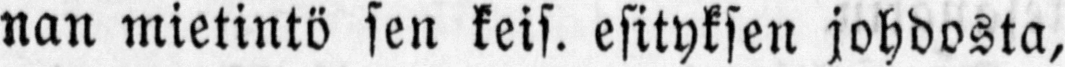nan mietintö sen keis. esityksen johdosta,
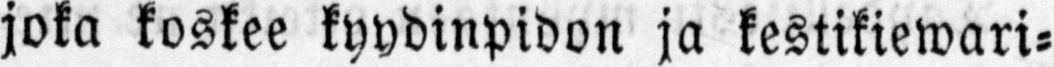joka koskee kyydinpidon ja kestikiewari-
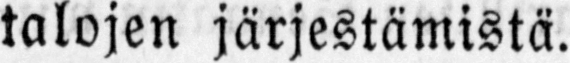talojen järjestämistä.
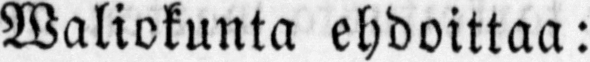Waliokunta ehdoittaa:
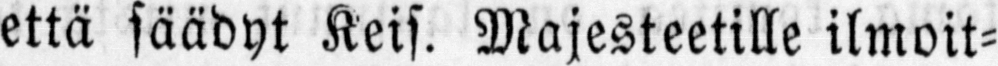että säädyt Keis. Majesteetille ilmoit-
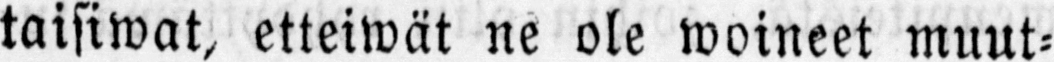taisiwat, etteiwät ne ole woineet muut-
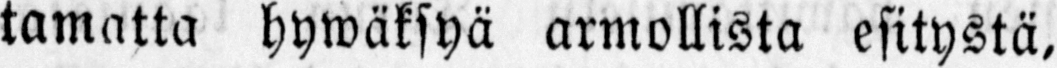tamatta hywäksyä armollista esitystä.
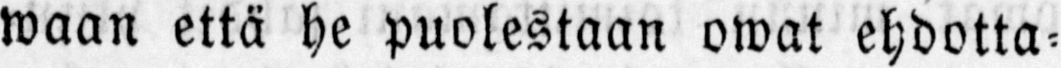waan että he puolestaan owat ehdotta-
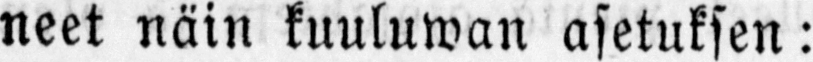neet näin kuuluman asetuksen:
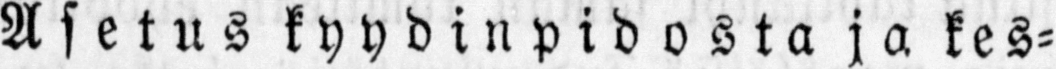Asetus kyydinpidos ta ja kes-
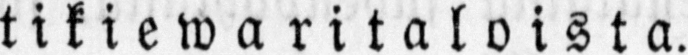tikiewaritaloista.
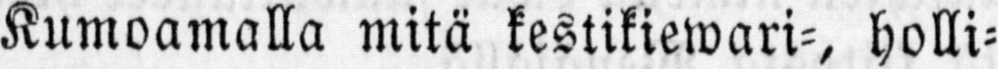Kumoamalla mitä kestikiewari-, holli-
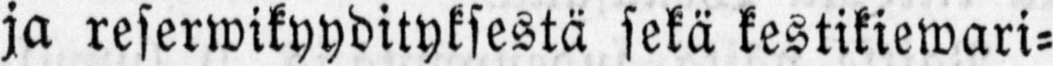ja reserwikyydityksestä sekä kestikiewari-
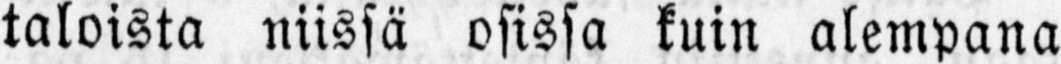taloista niissä osissa kuin alempana
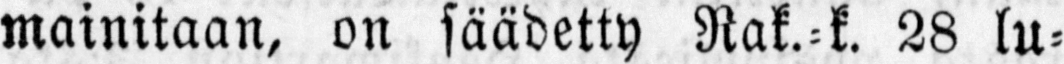mainitaan, on säädetty Rak.-k. 28 lu-
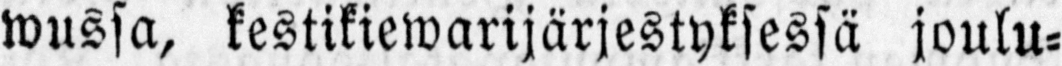wussa, kestikiewarijärjestyksessä joulu-
